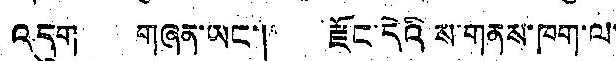འདུག གཞན་ཡང་། རྫོང་དེའི ས་གནས་ཁག་ལ་
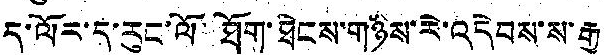ད་ལོར་ད་རུང་ལོ་ཐོག་ཐེངས་གཉིས་རེ་འདེབས་ས་རྒྱ་
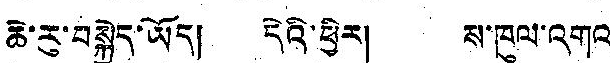ཆེ་རུ་བསྐྱེད་ཡོད། དེའི་ཕྱིར། ས་ཁུལ་འགའ
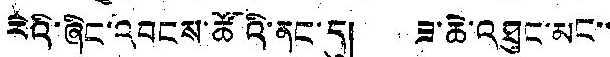རེའི་ཞིང་འབངས་ཚོའི་ནང་དུ། ཟ་ཆེ་འཐུང་མང་་
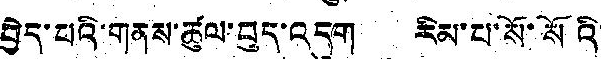བྱེད་པའི་གནས་ཚུལ་བུད་འདུག རིམ་པ་སོ་སོའི་
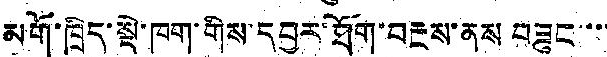མགོ་ཁྲིད་སྡེ་ཁག་གིས་དབྱར་ཐོག་བརྔས་ནས བཟུང་་་་
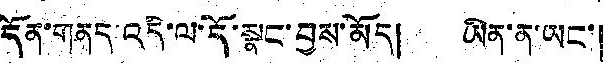དོན་གནད་འདི་ལ་དོ་སྣང་བྱས་མོད། ཡིན་ན་ཡང་།
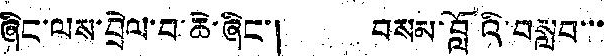ཞིང་ལས་བྲེལ་བ་ཆེ་ཞིང་། བསམ་བློའི་བསླབ་་་
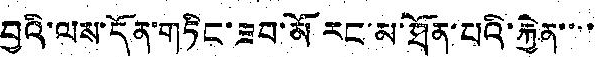བྱའི་ལས་དོན་གཏིང་ཟབ་མོ རང་མ་ཐོན་པའི་རྐྱེན་་་་་
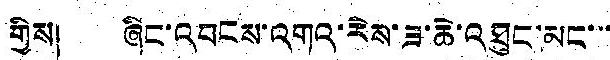གྱིས་ ཞིང་འབངས་འགའ་རེས་ཟ་ཆེ་འཐུང་མང་་་
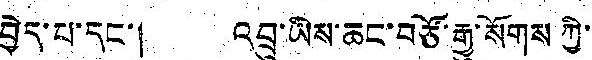བྱེད་པ་དང་། འབྲུ་ཡིས་ཆང་བཙོ་རྒྱུ་སོགས ཀྱི་་
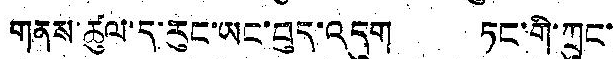གནས་ཚུལ་ད་རུང་ཡང་བུད་འདུག ཏང་གི་ཀྲུང་
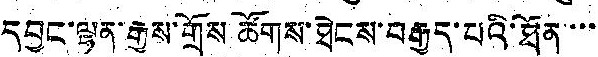དབྱང་ལྷན་རྒྱས་གྲོས ཚོགས་ཐེངས་བརྒྱད་པའི་ཐོན་་་་་
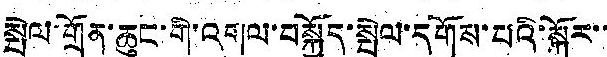སྤེལ་གྲོན་ཆུང་གི་འགུལ་བསྐྱོད་སྤེལ་དགོས་པའི་སྐོར་་
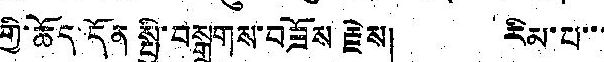གྱི་ཆོད་དོན སྤྱི་བསྒྲགས་བཟོས རྗེས། རིམ་པ་་་
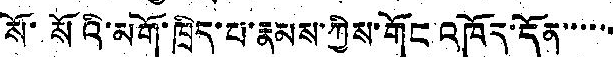སོ་སོའི་མགོ་ཁྲིད་པ་རྣམས་ཀྱིས་གོང་འཁོད་དོན་་་་་་
